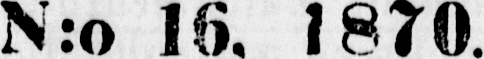N:o 16. 1870.
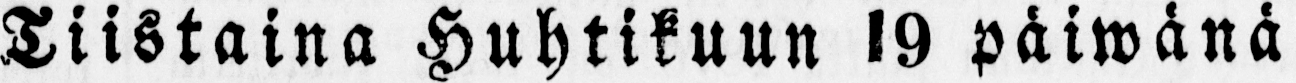Tiistaina Huhtikuun 19 päiwänä
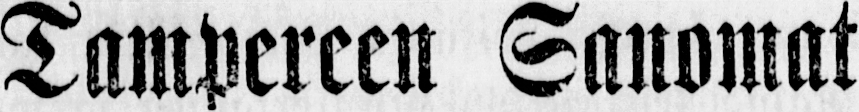Tampereen Sanomat
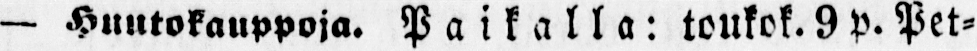— Huutokauppoja. Paikalla: toukok. 9 p. Pet-
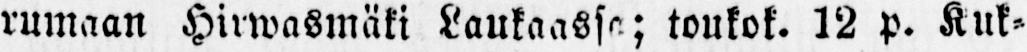rumaan Hirwasmäki Laukaassa; toukok. 12 p. Kuk-
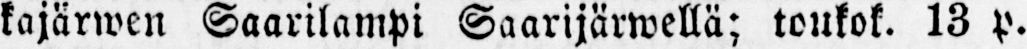kajärwen Saarilampi Saarijärwellä; toukok. 13 p.
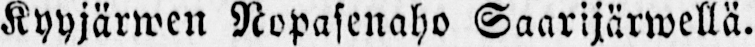Kyyjärwen Nopasenaho Saarijärwellä.
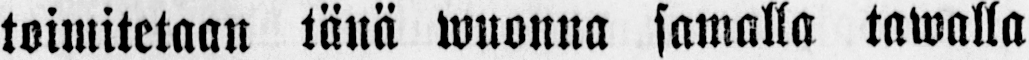toimitetaan tänä wuonna samalla tawalla
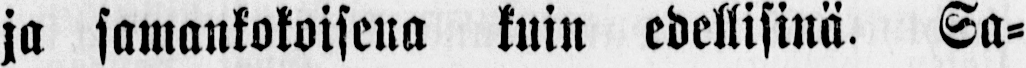ja samankokoisena kuin edellisinä. Sa-
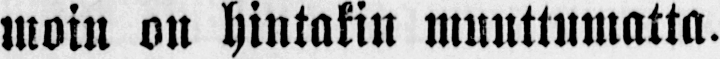moin on hintakin muuttumatta.
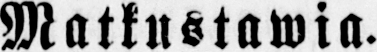Matkustawia.
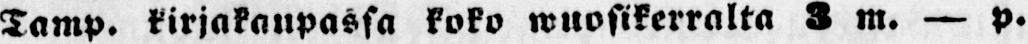Tamp. kirjakaupassa koko wuosikerralta 3 m. — p.
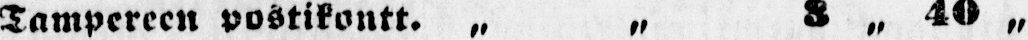Tampereen postikontt. „ „ 3 „ 40 „
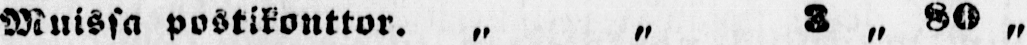Muissa postikonttor. „ „ 3 „ 80 „
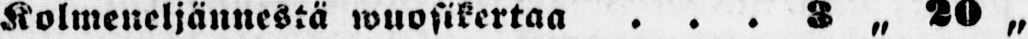Kolmeneljännestä wuosikertaa 3 „ 20 „
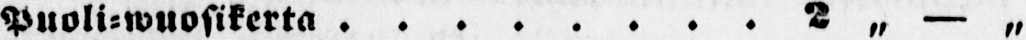Puoli-wuosikerta 2 „ — „
